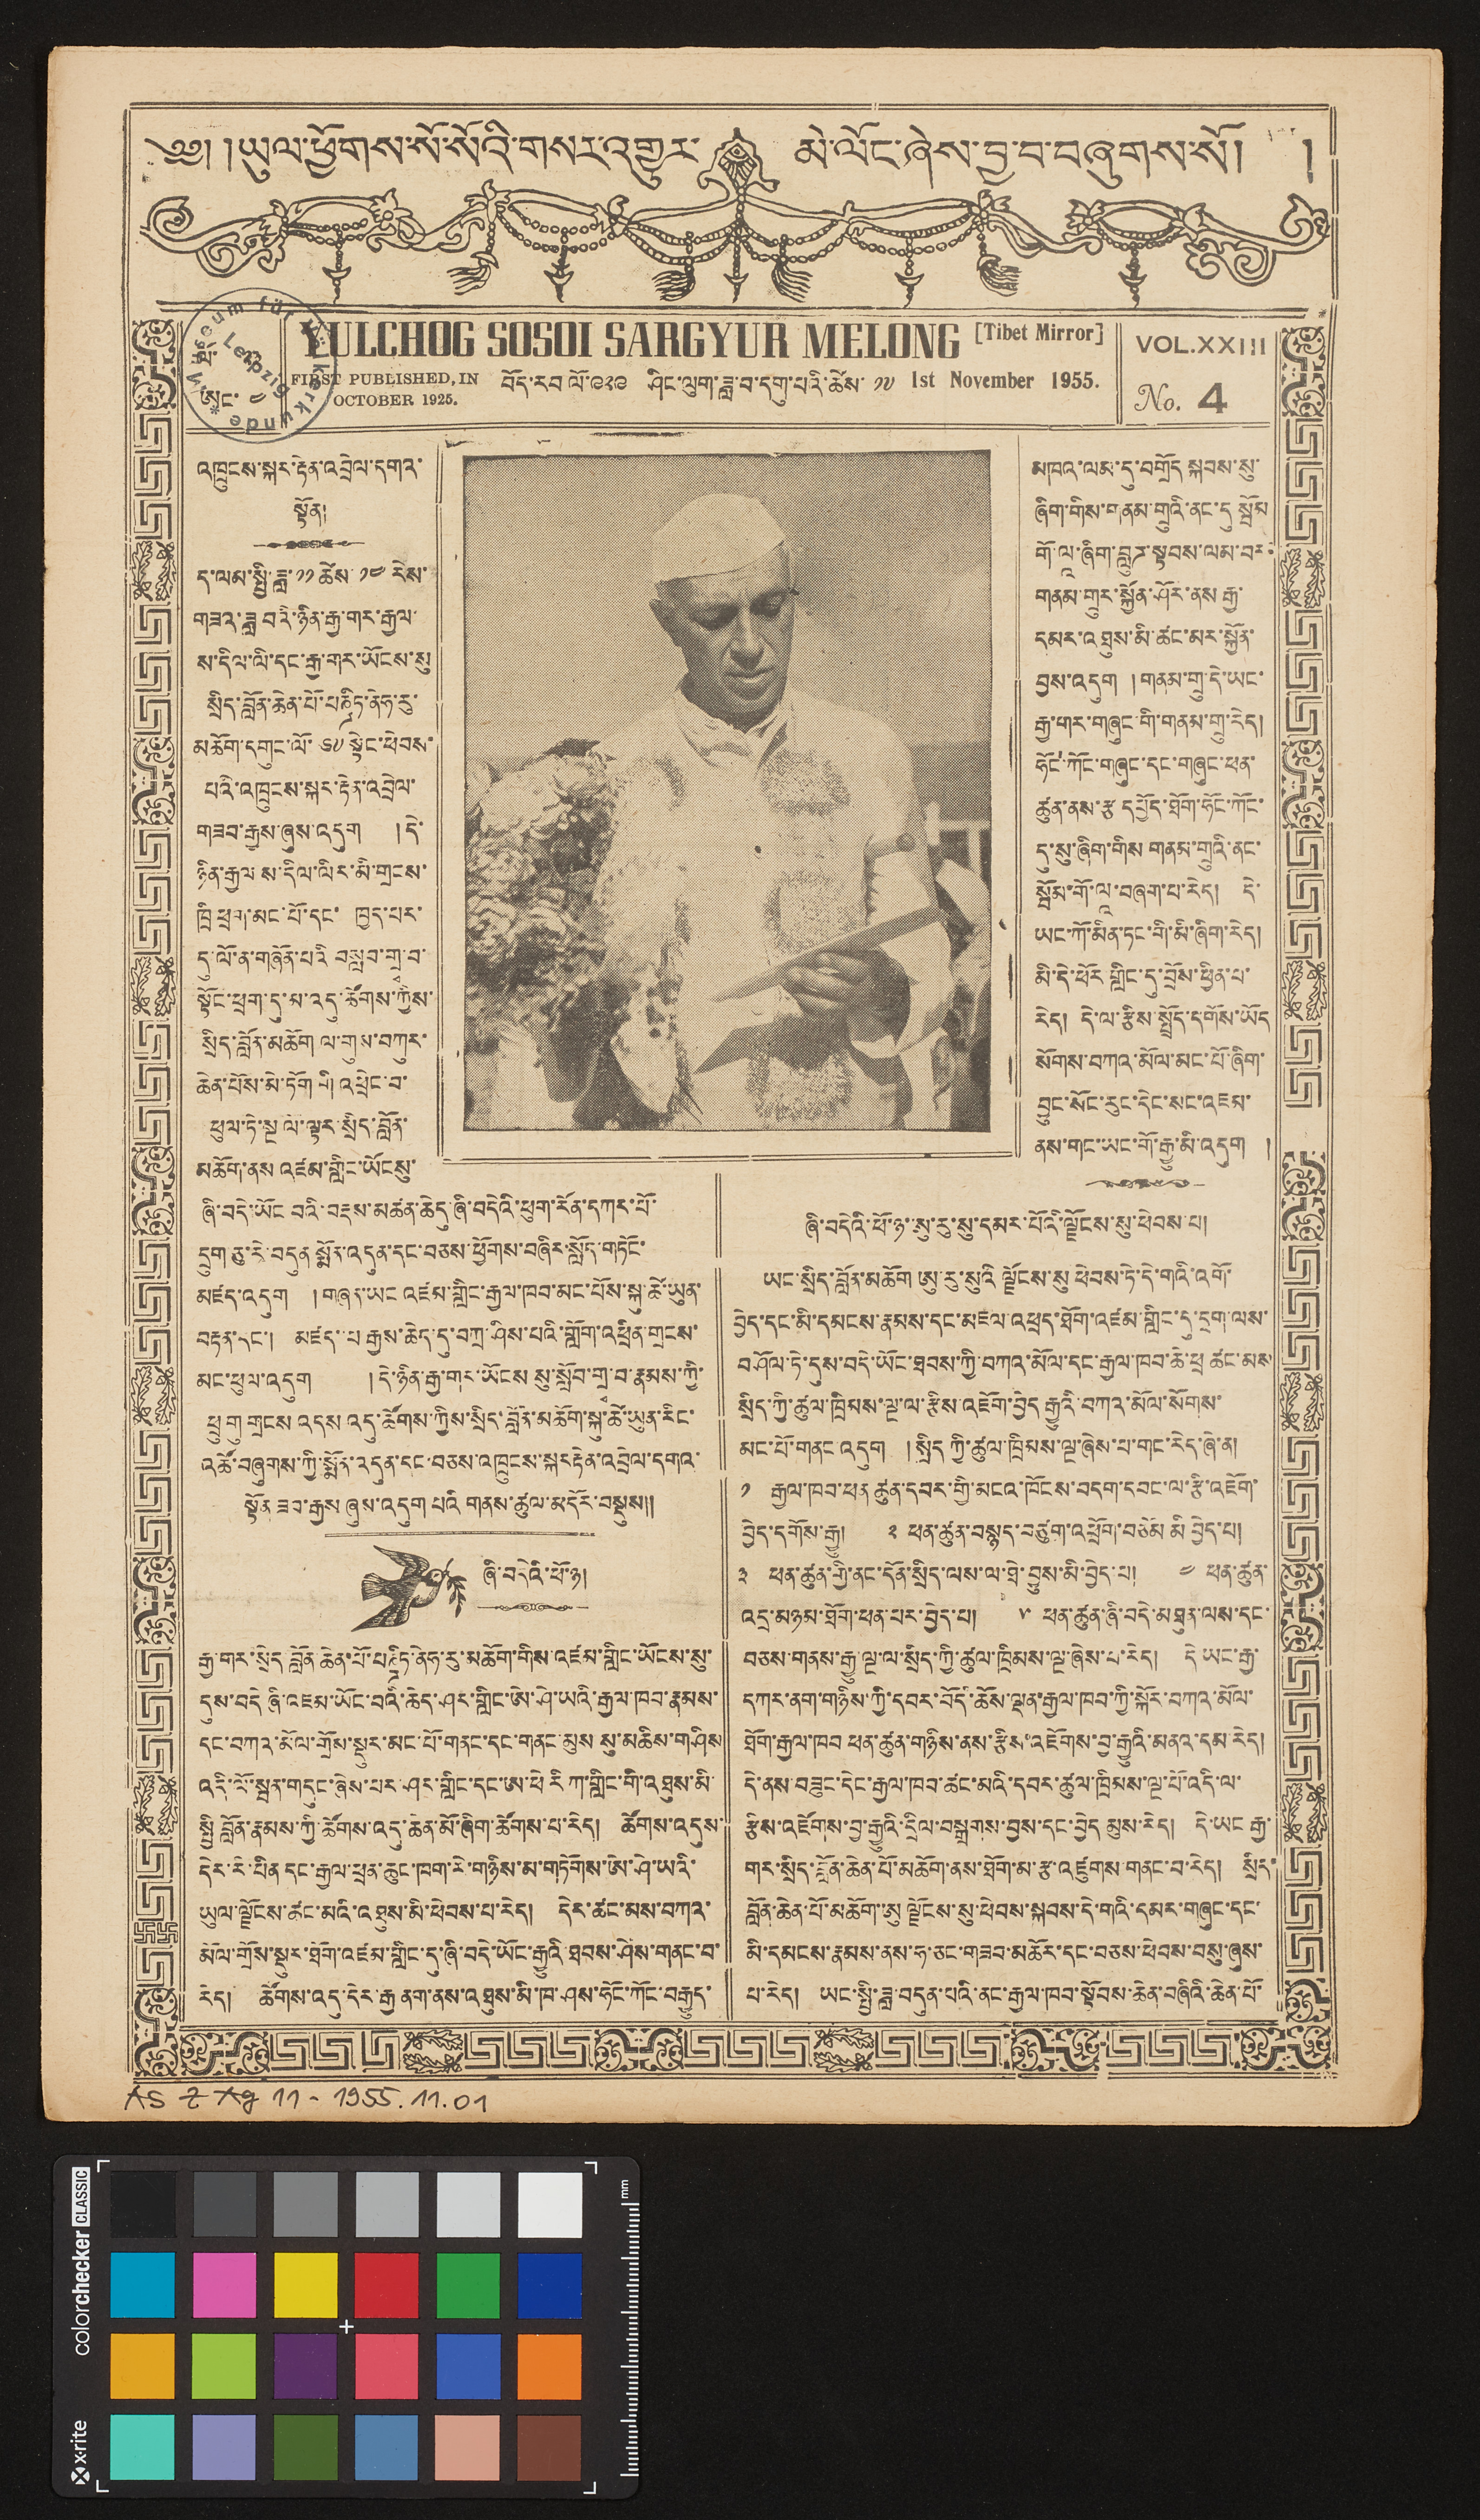༄༅། །ཡུལ་ཕྱོགས་སོ་སོའི་གསར་འགྱུར་མེ་ལོང་ཞེས་བྱ་བ་བཞུགས་སོ། །
YULCHOG SOSOI SARGYUR MELONG [Tibet Mirror]
FIRST PUBLISHED, IN
OCTOBER 1925.
བོད་རབ ལོ་༩༢༩ ཤིང་ལུག་ཟླ་བ་དགུ་པའི་ཚེས་ ༡༧ 1st November 1955.
ལོ་ ༢༣
ཨང་ ༤
VOL. XXIII
No. 4
འཁྲུངས་སྐར་རྟེན་འབྲེལ་དགའ་
སྟོན།
ད་ལམ་སྤྱི་ཟླ་ ༡༡ ཚེས་ ༡༤ རེས་
གཟའ་ཟླ་བའི་ཉིན་རྒྱ་གར་རྒྱལ་
ས་དིལ་ལི་དང་རྒྱ་གར་ཡོངས་སུ
སྲིད་བློན་ཆེན་པོ་པཎྜིཏ་ནེཧ་རུ་
མཆོག་དགུང་ལོ་ ༦༧ སྟེང་ཕེབས་
པའི་འཁྲུངས་སྐར་རྟེན་འབྲེལ་
གཟབ་རྒྱས་ཞུས་འདུག །དེ་
ཉིན་རྒྱལ ས་དིལ་ལིར་མི་གྲངས་
ཁྲི ཕྲག་མང་པོ་དང་ ཁྱད་པར་
དུ་ལོ་ན་གཞོན་པའི བསླབ་གྲྭ་བ་
སྟོང་ཕྲག་དུ་མ་འདུ་ཚོགས་ཀྱིས་
སྲིད་བློན་མཆོག ལ་གུས་བཀུར་
ཆེན་པོས་མེ་ཏོག གི འཕྲེང་བ་
ཕུལ་ཏེ་སྔ ལོ་ལྟར་སྲིད་བློན་
མཆོག་ནས འཛམ་གླིང་ཡོངསུ་
ཞི་བདེ་ཡོང བའི་བརྡས་མཚན་ཆེདུ་ཞི་བདེའི་ཕུག་རོན་དཀར་པོ་
དྲུག་ཅུ་རེ་བདུན སྨོན་འདུན་དང་བཅས་ཕྱོགས་བཞིར་སློད་གཏོང་
མཛད་འདུག  །གཞན་ཡང འཛམ་གླིང་རྒྱལ་ཁབ་མང་པོས་སྐུ་ཚེ་ཡུན་
བརྟན་དང་། མཛད་པ རྒྱས་ཆེད་དུ་བཀྲ་ཤིས་པའི་གློག་འཕྲིན་གྲངས་
མང་ཕུལ་འདུག    །དེ་ཉིན་རྒྱ་གར་ཡོངས སུ་སློབ་གྲྭ་བ་རྣམས་ཀྱི་
ཕྲུ གུ གྲངས འདས འདུ་ཚོགས་ཀྱིས་སྲིད་བློན་མཆོག་སྐུ་ཚེ་ཡུན་རིང་
འཚོ་བཞུགས་ཀྱི་སྨོན་འདུན་དང་བཅས་འཁྲུངས་སྐར རྟེན་འབྲེལ་དགའ་
སྟོན ཟབ་རྒྱས ཞུས་འདུག པའི གནས་ཚུལ་མདོར་བསྡུས།།
ཞི་བདེའི་ཕོ་ཉ།
རྒྱ་གར་སྲིད བློན ཆེན་པོ་པཎྜིཏ་ནེཧ་རུ་མཆོག་གིས་འཛམ་གླིང་ཡོངས་སུ་
དུས་བདེ ཞི་འཇམ་ཡོང་བའི་ཆེད་ཤར་གླིང་ཨེ་ཤེ་ཡའི་རྒྱལ་ཁབ་རྣམས་
དང་བཀའ་མོལ་གྲོས་སྡུར་མང་པོ་གནང་དང་གནང་མུས སུ་མཆིས་གཤིས
འདི་ལོ་སྦན་གདུང་ཞེས་པར་ཤར་གླིང་དང་ཨ་ཕེ རི ཀ་གླིང་གི་འཐུས་མི་
སྤྱི བློན་རྣམས་ཀྱི་ཚོགས་འདུ་ཆེན་མོ་ཞིག་ཚོགས་པ་རེད། ཚོགས་འདུས་
དེར་རི་པིན དང་རྒྱལ་ཕྲན་ཆུང་ཁག་རེ་གཉིས་མ་གཏོགས་ཨེ་ཤེ་ཡའི་
ཡུལ་ལྗོངས་ཚང་མའི་འཐུས་མི་ཕེབས་པ་རེད། དེར་ཚང་མས་བཀའ་
མོལ་གྲོས་སྡུར་ཐོག་འཛམ་གླིང་དུ་ཞི་བདེ་ཡོང་རྒྱུའི་ཐབས་ཤེས་གནང་བ་
རེད། ཚོགས་འདུ་དེར་རྒྱ་ནག་ནས་འཐུས་མི་ཁ་ཤས་ཧོང་ཀོང་བརྒྱུད་
མཁའ་ལམ་དུ་བགྲོད སྐབས་སུ་
ཞིག་གིས་གནམ་གྲུའི་ནང་དུ སྦོམ
གོ་ལཱ་ཞིག་བླུཌ་སྟབས་ལམ་བར
གནམ་གྲུར་སྐྱོན་ཤོར་ནས རྒྱ་
དམར་འཐུས་མི་ཚང་མར་སྐྱོན་
བྱས་འདུག །གནམ་གྲུ་དེ་ཡང་
རྒྱ་གར་གཞུང་གི་གནམ་གྲུ་རེད།
ཧོང་ཀོང་གཞུང་དང་གཞུང་ཕན་
ཚུན་ནས་རྩ དཔྱོད་ཐོག་ཧོང་ཀོང་
དུ་སུ་ཞིག་གིས གནམ་གྲུའི་ནང་
སྦོམ་གོ་ལཱ་བཞག་པ་རེད། དེ་
ཡང་ཀོ་མིན་ཏང་གི་མི་ཞིག་རེད།
མི་དེ་ཕོར གླིང་དུ་བྲོས་ཕྱིན་པ་
རེད། དེ་ལ་རྩིས་སྤྲོད་དགོས་ཡོད
སོགས་བཀའ་མོལ་མང་པོ་ཞིག་
བྱུང་སོང་རུང་དེང་སང་འཇམ་
ནས་གང་ཡང་གོ་རྒྱུ་མི་འདུག  །
ཞི་བདེའི་ཕོ་ཉ་ཨུ་རུ་སུ་དམར་པོའི་ལྗོངས་སུ་ཕེབས་པ།
ཡང་སྲིད་བློན་མཆོག ཨུ་རུ་སུའི ལྗོངས་སུ ཕེབས་ཏེ་དེ་གའི་འགོ་
བྱེད་དང་མི་དམངས་རྣམས་དང་མཇལ་འཕྲད་ཐོག་འཛམ་གླིང་དུ་དྲག་ལས་
བཤོལ་ཏེ་དུས་བདེ་ཡོང་ཐབས་ཀྱི་བཀའ་མོལ་དང་རྒྱལ་ཁབ་ཆེ་ཕྲ ཚང་མས
སྲིད་ཀྱི་ཚུལ་ཁྲིམས་ལྔ་ལ་རྩིས་འཇོག་བྱེད རྒྱུའི་བཀའ་མོལ་སོགས་
མང་པོ་གནང་འདུག །སྲིད ཀྱི་ཚུལ་ཁྲིམས་ལྔ་ཞེས་པ་གང་རེད་ཞེ་ན།
༡ རྒྱལ་ཁབ་ཕན ཚུན་དབར་གྱི་མངའ་ཁོངས་བདག་དབང་ལ་རྩི་འཇོག་
བྱེད་དགོས་རྒྱུ། ༢ ཕན་ཚུན་བསྙད་བཙུག་འཕྲོག་བཅོམ མི བྱེད་པ།
༣ ཕན་ཚུན་གྱི་ནང་དོན་སྲིད་ལས་ལ་ཐེ་བྱུས་མི་བྱེད་པ། ༤ ཕན་ཚུན་
འདྲ་མཉམ་ཐོག་ཕན་པར་བྱེད་པ། ༥ ཕན་ཚུན་ཞི་བདེ་མཐུན་ལས་དང་
བཅས་གནས་རྒྱུ་ལྔ་ལ་སྲིད་ཀྱི་ཚུལ་ཁྲིམས་ལྔ་ཞེས་པ་རེད། དེ ཡང་རྒྱ་
དཀར་ནག་གཉིས་ཀྱི་དབར་བོད་ཆོས་ལྡན་རྒྱལ་ཁབ་ཀྱི་སྐོར་བཀའ་མོལ་
ཐོག་རྒྱལ་ཁབ ཕན་ཚུན་གཉིས་ནས་རྩིས་འཇོགས་བྱ་རྒྱུའི་མནའ་དམ་རེད།
དེ་ནས་བཟུང་དེང་རྒྱལ་ཁབ་ཚང་མའི་དབར་ཚུལ་ཁྲིམས་ལྔ་པོ་འདི་ལ་
རྩིས་འཇོགས་བྱ་རྒྱུའི་དྲིལ་བསྒྲགས་བྱས་དང་བྱེད མུས་རེད། དེ་ཡང རྒྱ་
གར་སྲིད་བློན་ཆེན་པོ་མཆོག་ནས་ཐོག་མ་རྩ་འཛུགས་གནང་བ་རེད། སྲིད་
བློན་ཆེན་པོ་མཆོག་ཨུ ལྗོངས་སུ་ཕེབས་སྐབས་དེ་གའི་དམར་གཞུང་དང་
མི་དམངས་རྣམས་ནས་ཧ་ཅང་གཟབ་མཆོར་དང་བཅས་ཕེབས་བསུ་ཞུས་
པ་རེད། ཡང་སྤྱི་ཟླ་བདུན་པའི་ནང་རྒྱལ་ཁབ་སྟོབས་ཆེན་བཞིའི་ཆེན་པོ་
